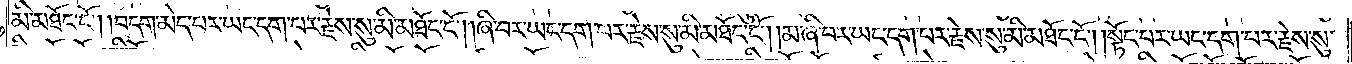མི་མཐོང་ངོ༌། །བདག་མེད་པར་ཡང་དག་པར་རྗེས་སུ་མི་མཐོང་ངོ༌། །ཞི་བར་ཡང་དག་པར་རྗེས་སུ་མི་མཐོང་ངོ༌། །མ་ཞི་བར་ཡང་དག་པར་རྗེས་སུ་མི་མཐོང་ངོ༌། །སྟོང་པར་ཡང་དག་པར་རྗེས་སུ་
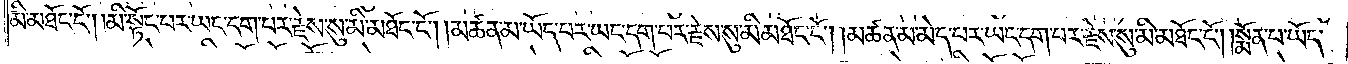མི་མཐོང་ངོ༌། །མི་སྟོང་པར་ཡང་དག་པར་རྗེས་སུ་མི་མཐོང་ངོ༌། །མཚན་མ་ཡོད་པར་ཡང་དག་པར་རྗེས་སུ་མི་མཐོང་ངོ༌། །མཚན་མ་མེད་པར་ཡང་དག་པར་རྗེས་སུ་མི་མཐོང་ངོ༌། །སྨོན་པ་ཡོད་
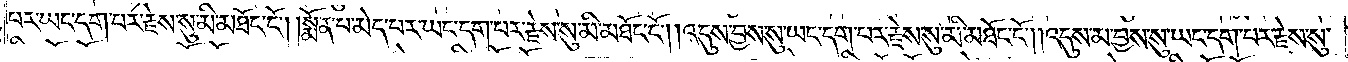པར་ཡང་དག་པར་རྗེས་སུ་མི་མཐོང་ངོ༌། །སྨོན་པ་མེད་པར་ཡང་དག་པར་རྗེས་སུ་མི་མཐོང་ངོ༌། །འདུས་བྱས་སུ་ཡང་དག་པར་རྗེས་སུ་མི་མཐོང་ངོ༌། །འདུས་མ་བྱས་སུ་ཡང་དག་པར་རྗེས་སུ་
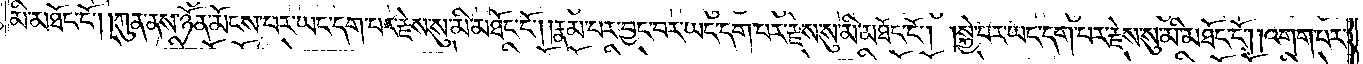མི་མཐོང་ངོ༌། །ཀུན་ནས་ཉོན་མོངས་པར་ཡང་དག་པར་རྗེས་སུ་མི་མཐོང་ངོ༌། །རྣམ་པར་བྱང་བར་ཡང་དག་པར་རྗེས་སུ་མི་མཐོང་ངོ༌། །སྐྱེ་བར་ཡང་དག་པར་རྗེས་སུ་མི་མཐོང་ངོ༌། །འགག་པར་
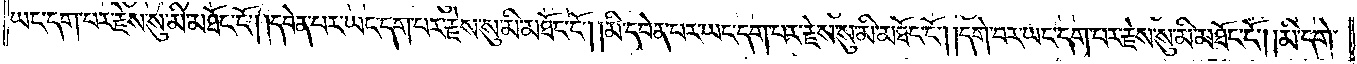ཡང་དག་པར་རྗེས་སུ་མི་མཐོང་ངོ༌། །དབེན་པར་ཡང་དག་པར་རྗེས་སུ་མི་མཐོང་ངོ༌། །མི་དབེན་པར་ཡང་དག་པར་རྗེས་སུ་མི་མཐོང་ངོ༌། །དགེ་བར་ཡང་དག་པར་རྗེས་སུ་མི་མཐོང་ངོ༌། །མི་དགེ་
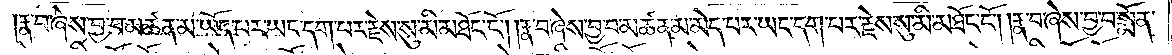རྣ་བ་ཞེས་བྱ་བ་མཚན་མ་ཡོད་པར་ཡང་དག་པར་རྗེས་སུ་མི་མཐོང་ངོ༌། །རྣ་བ་ཞེས་བྱ་བ་མཚན་མ་མེད་པར་ཡང་དག་པར་རྗེས་སུ་མི་མཐོང་ངོ༌། །རྣ་བ་ཞེས་བྱ་བ་སྨོན་
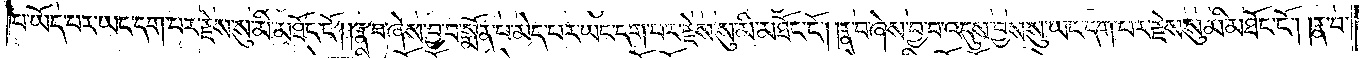པ་ཡོད་པར་ཡང་དག་པར་རྗེས་སུ་མི་མཐོང་ངོ༌། །རྣ་བ་ཞེས་བྱ་བ་སྨོན་པ་མེད་པར་ཡང་དག་པར་རྗེས་སུ་མི་མཐོང་ངོ༌། །རྣ་བ་ཞེས་བྱ་བ་འདུས་བྱས་སུ་ཡང་དག་པར་རྗེས་སུ་མི་མཐོང་ངོ༌། །རྣ་བ་
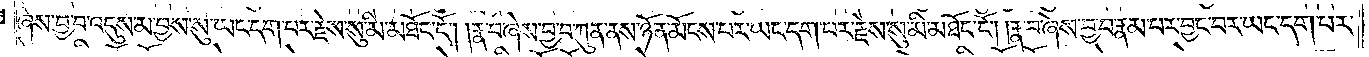ཞེས་བྱ་བ་འདུས་མ་བྱས་སུ་ཡང་དག་པར་རྗེས་སུ་མི་མཐོང་ངོ༌། །རྣ་བ་ཞེས་བྱ་བ་ཀུན་ནས་ཉོན་མོངས་པར་ཡང་དག་པར་རྗེས་སུ་མི་མཐོང་ངོ༌། །རྣ་བ་ཞེས་བྱ་བ་རྣམ་པར་བྱང་བར་ཡང་དག་པར་
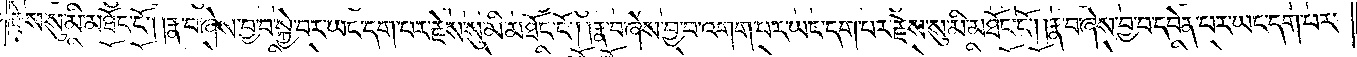རྗེས་སུ་མི་མཐོང་ངོ༌། །རྣ་བ་ཞེས་བྱ་བ་སྐྱེ་བར་ཡང་དག་པར་རྗེས་སུ་མི་མཐོང་ངོ༌། །རྣ་བ་ཞེས་བྱ་བ་འགག་པར་ཡང་དག་པར་རྗེས་སུ་མི་མཐོང་ངོ༌། །རྣ་བ་ཞེས་བྱ་བ་དབེན་པར་ཡང་དག་པར་
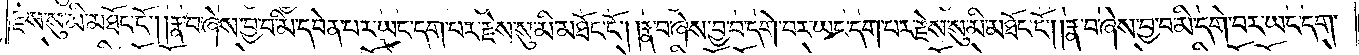རྗེས་སུ་མི་མཐོང་ངོ༌། །རྣ་བ་ཞེས་བྱ་བ་མི་དབེན་པར་ཡང་དག་པར་རྗེས་སུ་མི་མཐོང་ངོ༌། །རྣ་བ་ཞེས་བྱ་བ་དགེ་བར་ཡང་དག་པར་རྗེས་སུ་མི་མཐོང་ངོ༌། །རྣ་བ་ཞེས་བྱ་བ་མི་དགེ་བར་ཡང་དག་
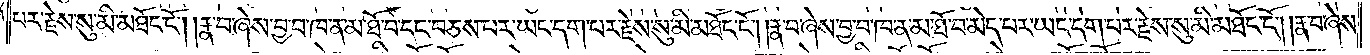པར་རྗེས་སུ་མི་མཐོང་ངོ༌། །རྣ་བ་ཞེས་བྱ་བ་ཁ་ན་མ་ཐོ་བ་དང་བཅས་པར་ཡང་དག་པར་རྗེས་སུ་མི་མཐོང་ངོ༌། །རྣ་བ་ཞེས་བྱ་བ་ཁ་ན་མ་ཐོ་བ་མེད་པར་ཡང་དག་པར་རྗེས་སུ་མི་མཐོང་ངོ༌། །རྣ་བ་ཞེས་
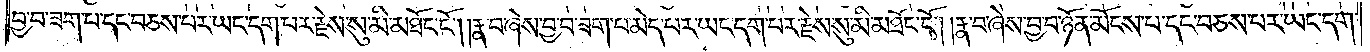བྱ་བ་ཟག་པ་དང་བཅས་པར་ཡང་དག་པར་རྗེས་སུ་མི་མཐོང་ངོ༌། །རྣ་བ་ཞེས་བྱ་བ་ཟག་པ་མེད་པར་ཡང་དག་པར་རྗེས་སུ་མི་མཐོང་ངོ༌། །རྣ་བ་ཞེས་བྱ་བ་ཉོན་མོངས་པ་དང་བཅས་པར་ཡང་དག་
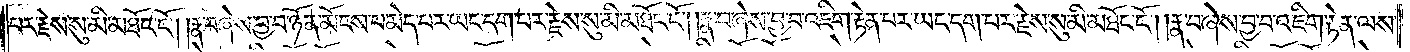པར་རྗེས་སུ་མི་མཐོང་ངོ༌། །རྣ་བ་ཞེས་བྱ་བ་ཉོན་མོངས་པ་མེད་པར་ཡང་དག་པར་རྗེས་སུ་མི་མཐོང་ངོ༌། །རྣ་བ་ཞེས་བྱ་བ་འཇིག་རྟེན་པར་ཡང་དག་པར་རྗེས་སུ་མི་མཐོང་ངོ༌། །རྣ་བ་ཞེས་བྱ་བ་འཇིག་རྟེན་ལས་
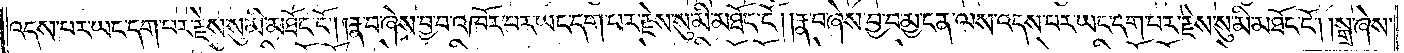འདས་པར་ཡང་དག་པར་རྗེས་སུ་མི་མཐོང་ངོ༌། །རྣ་བ་ཞེས་བྱ་བ་འཁོར་བར་ཡང་དག་པར་རྗེས་སུ་མི་མཐོང་ངོ༌། །རྣ་བ་ཞེས་བྱ་བ་མྱ་ངན་ལས་འདས་པར་ཡང་དག་པར་རྗེས་སུ་མི་མཐོང་ངོ༌། །སྒྲ་ཞེས་
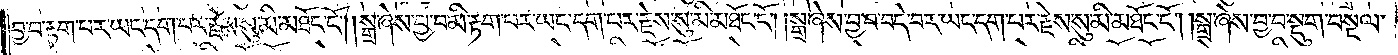བྱ་བ་རྟག་པར་ཡང་དག་པར་རྗེས་སུ་མི་མཐོང་ངོ༌། །སྒྲ་ཞེས་བྱ་བ་མི་རྟག་པར་ཡང་དག་པར་རྗེས་སུ་མི་མཐོང་ངོ༌། །སྒྲ་ཞེས་བྱ་བ་བདེ་བར་ཡང་དག་པར་རྗེས་སུ་མི་མཐོང་ངོ༌། །སྒྲ་ཞེས་བྱ་བ་སྡུག་བསྔལ་
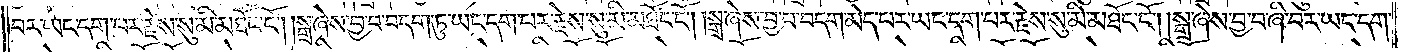བར་ཡང་དག་པར་རྗེས་སུ་མི་མཐོང་ངོ༌། །སྒྲ་ཞེས་བྱ་བ་བདག་ཏུ་ཡང་དག་པར་རྗེས་སུ་མི་མཐོང་ངོ༌། །སྒྲ་ཞེས་བྱ་བ་བདག་མེད་པར་ཡང་དག་པར་རྗེས་སུ་མི་མཐོང་ངོ༌། །སྒྲ་ཞེས་བྱ་བ་ཞི་བར་ཡང་དག་
